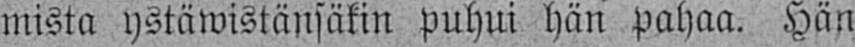mista ystäwistänsäkin puhui hän pahaa. Hän
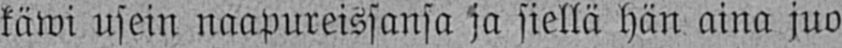käwi usein naapureissansa ja siellä hän aina juo-
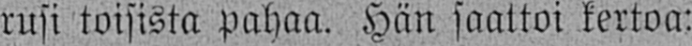rusi toisista pahaa. Hän saattoi kertoa:
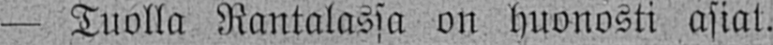— Tuolla Rantalassa on huonosti asiat.
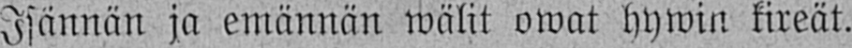Isännän ja emännän wälit owat hywin kireät.
